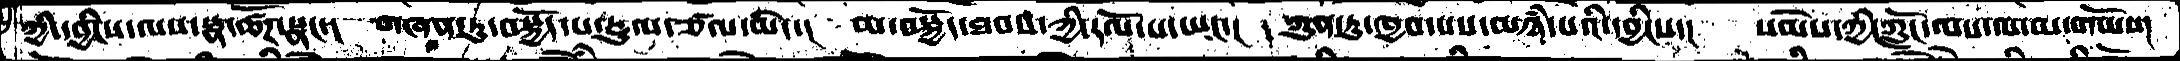ཀྱི་དབྱིངས་ལས་སྣ་ཚོཌ་སྣང་།  གཞན་ཏུ་བསྐྱོད་པ་སྡུལ་ཙལ་མེད་།  མ་བསྐྱོད་ཐབས་ཀྱི་རོལ་པ་ཡང་།  ཀུན་ཏུ་ཁྱབ་པས་མཉཾ་པིའ་དབྱིངས་།  སེམས་ཀྱི་ཀློང་ལས་ལ་མ་གཡོས།
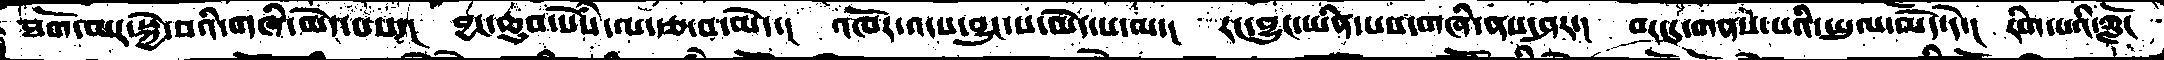ཐོག་མར་སྐྱེ་བའི་གཞི་མེད་པས་།  བྱང་ཆུབ་སེཾས་ལ་རྩ་བ་མེད་།  འཁོར་འདས་བྱུང་པ་མེད་པ་ལ་།  རང་བྱུང་ཡིན་པས་གཞི་ནས་ཤར་།  བར་དུ་གནས་པའི་ཡུལ་མེད་དེ་།  རིག་པའི་ཀློང་ང་
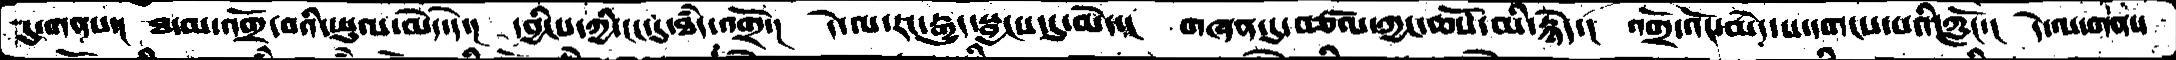དུ་གནས་།  ཐ་མ་འགྲོ་བའི་ཡུལ་མེད་དེ་།  དབྱིངས་ཀྱི་ངང་དུ་ཐཾད་འགྲོ་།  དེ་ལ་རང་རྒྱུད་སྦྱངས་དུ་མེད་།  གཞན་དུ་བཙལ་ཀྱང་ཆོས་མི་རྙེད་།  འགྲོ་འོང་མེད་པ་དགངས་པའི་ཀློང་།  དེ་ལ་གནས་
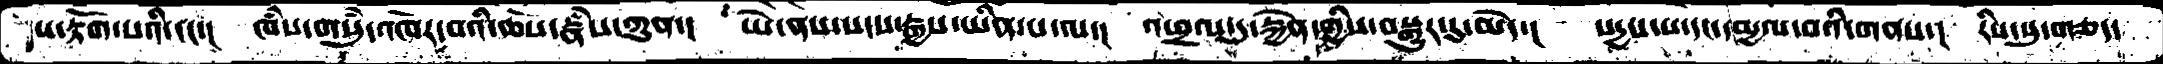པ་རྟོག་པའི་ངང་།   ཁཾས་གསུཾ་འཁོར་བའི་ཆོས་རྣཾ་ཀུན་།   ཡེ་ནས་སངས་རྒྱས་ཡིན་པ་ལ་།  འཕྲལ་དུ་རྐྱེན་གྱིས་བསྒྱུར་དུ་མེད་།   སདྱས་ས་དང་དམྱལ་བའི་གནས་།   རིས་སུ་གཅད་
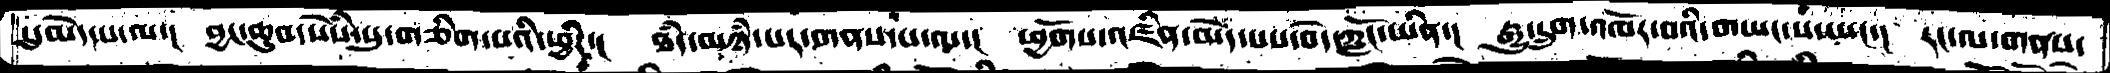དུ་མེད་པ་ལ་།  བྱང་ཆུབ་སེཾས་སུ་གཅིག་པའི་ཕྱིར་།  ཐཾད་མཉཾ་པར་གནས་པ་ལ་།  ཕྱོགས་འཛིན་མེད་པས་བདེ་ཀློང་ཡིན་།  རྒྱུ་དྲུག་འཁོར་བའི་གཡང་ས་ཡང་།  རང་ལ་གནས་
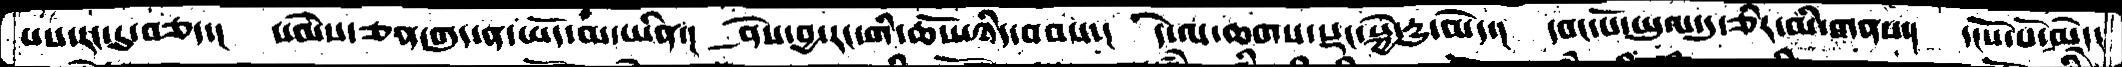པས་རང་དུ་བཅད་།  སེམས་ཅན་གུད་ན་ཡོད་མ་ཡིན་།  ཤེས་བྱ་རང་གི་ཆོས་ཉིད་བབས་།  དེ་ལ་ཆགས་སྡང་སྐྱེ་ཏུ་མེད་།  དབང་པོ་ཡུལ་དུ་ཅིར་མི་གནས་།  དངོས་པོ་མེད་
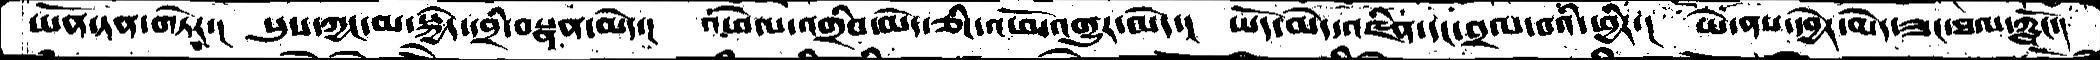ཡོན་ཏན་གཏེར་།  སུས་ཀྱང་མ་སྐྱེད་དབྲི་བསྣན་མེད་།  འཕེལ་འགྲིབ་མེད་ཅིང་འཕོ་འགྱུར་མེད་།  ཡོད་མེད་འཛིན་དང་བྲལ་བའི་ཕྱིར་།  ཡེ་ནས་དབྱེར་མེད་ཟང་ཐལ་ཀློང་།
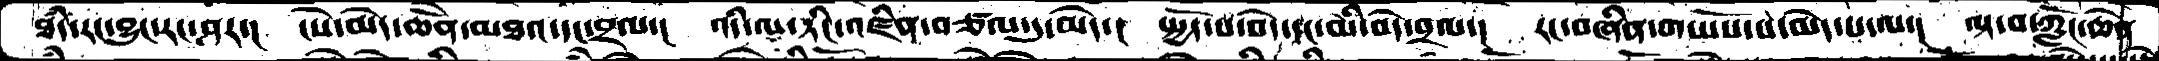ཐཾད་རང་བྱུང་རང་ཤར་།། ངེས་མེད་ཆེནོ་མཐའ་དང་བྲལ་། འདི་ལ་ཏིང་འཛིན་བཙལ་དུ་མེད་། སྤྱོད་པ་བདེ་དང་མི་བདེ་བྲལ་། རང་བཞིན་གཡོས་པ་མེད་པ་ལ་། ལྟ་བ་ཀློང་ཆེན
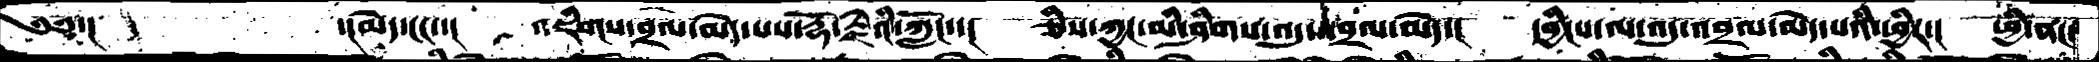༄༅་།         ་།མེད་ངང་་།  འཇིགས་བྲལ་མེད་པས་རྡོ་རྗེའི་ཀློང་་།  ཅིས་ཀྱང་མི་ཤིགས་འདུ་འབྲལ་མེད་།  དབྱིངས་ལ་འདུ་འབྲལ་མེད་པའི་ཕྱིར་།  ཕྱི་ནང་
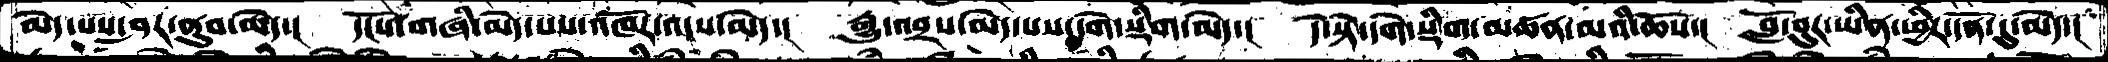མེད་པས་ཤར་ནུབ་མེད་།  དངོས་གཞི་མེད་པས་འཁོར་འདས་མེད་།  རྒྱུ་འབྲས་མེད་པས་དགེ་སྡིག་མེད་།  དེ་སྟེ་དགེ་སྡིག་མཚན་མའི་ཆོས་།  བློ་བུར་ཡིན་ཕྱིར་དོན་དུ་མེད་།
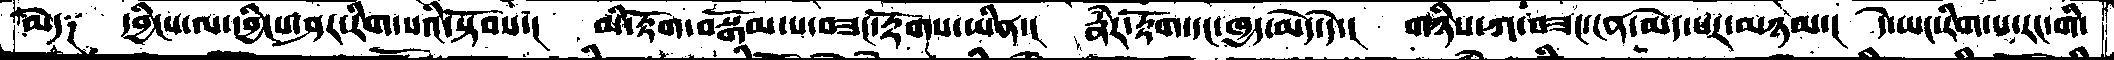མེད༑   དབྱིངས་ལ་དབྱིངས་ཤར་རིག་པའི་སྟོབས་།  མི་རྟོག་བསྒོམ་པ་བཟང་རྟོགས་ཡིན་།  རྣཾར་རྟོག་དང་ཁྱད་མེད་དེ་།  གཉིས་ཀ་བཟང་ངན་མེད་པར་མཉམ་།  དེ་ཡང་རིག་པ་རང་གི་
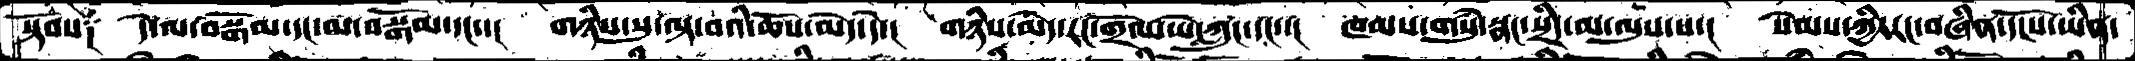སྟོབས༑  དེ་ལ་བསྒོམ་དང་མ་བསྒོམ་དང་་།  གཉིས་སུ་ལྟ་བའི་ཆོས་མེད་དེ་།  གཉིས་མེད་རང་གྲོལ་ཡེ་ཀླུང་དང་་།  ཁམས་གསུཾ་སྣང་སྲིད་མ་ལུས་པ་།   སེམས་ཀྱི་རང་བཞིན་དངོས་ཡིན་
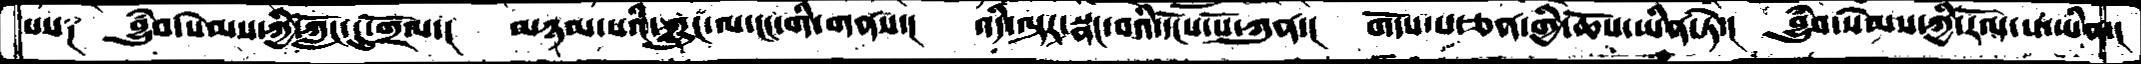པས༑  བྱུཾབ་སེམས་ཀྱི་ཀློང་དུ་གྲོལ་།   མཉམ་པའི་ཀླུང་ལ་ངང་གི་གནས་།   འདི་ལྟར་སྣང་བའི་དངོས་པོ་ཀུན་།།   གདོས་པ་ཅན་གྱི་ཆོས་ཡིན་ཏེ་།   བྱུཾབ་སེམས་ཀྱི་རོལ་པ་ཡིན་།
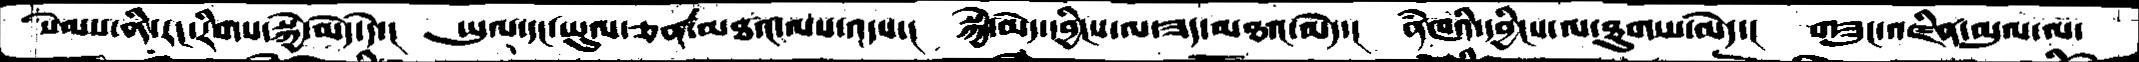སེམས་ནི་རང་རིགས་སྐྱེ་མེད་དེ་།  ཡུལ་དང་ཡུལ་ཅན་མཐའ་ལས་འདས་།   སྐྱེ་མེད་དབྱིངས་ལ་ཟད་མཐའ་མེད་།  ནཾཁའི་དབྱིངས་ལ་ཐུག་པ་མེད་།   གཟུང་འཛིན་ཡུལ་ལ་
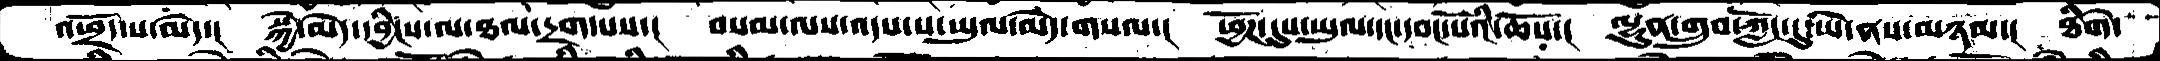འཕྲོད་པ་མེད་།  སྐྱེ་མེད་དབྱིངས་ལ་ཐལ་དྲག་པས་།  བསམ་ལས་འདས་པ་ཡུལ་མེད་གསལ་།  ཕྱོཌ་དུས་ཡུལ་དང་དབང་པོའི་ཆོས་།   ལྷུན་གྲུབ་ཀློང་དུ་ཡེ་ནས་མཉམ་།  ཐིགེ་
